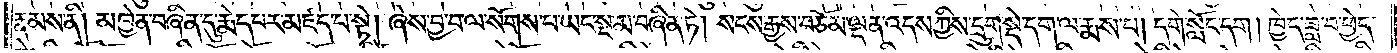རྣམས་ནི། མཁྱེན་བཞིན་དུ་རྨེད་པར་མཛད་པ་སྟེ། ཞེས་བྱ་བ་ལ་སོགས་པ་ཡང་སྔ་མ་བཞིན་ཏེ། སངས་རྒྱས་བཅོམ་ལྡན་འདས་ཀྱིས་དྲུག་སྡེ་དག་ལ་རྨས་པ། དགེ་སློང་དག །ཁྱེད་ཟླ་བ་ཕྱེད་
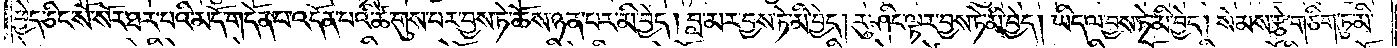ཕྱེད་ཅིང་སོ་སོར་ཐར་པའི་མདོ་གདོན་པ་འདོན་པའི་ཚེ་གུས་པར་བྱས་ཏེ་ཆོས་ཉན་པར་མི་བྱེད། བླ་མར་བྱས་ཏེ་མི་བྱེད། རུ་ཤིང་ལྟར་བྱས་ཏེ་མི་བྱེད། ཡིད་ལ་བྱས་ཏེ་མི་བྱེད། སེམས་རྩེ་གཅིག་ཏུ་མི་
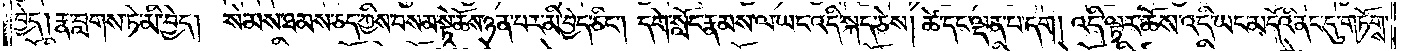བྱེད། རྣ་བླགས་ཏེ་མི་བྱེད། སེམས་ཐམས་ཅད་ཀྱིས་བསམ་སྟེ་ཆོས་ཉན་པར་མི་བྱེད་ཅིང༌། དགེ་སློང་རྣམས་ལ་ཡང་འདི་སྐད་ཅེས། ཚེ་དང་ལྡན་པ་དག །འདི་ལྟར་ཆོས་འདི་ཡང་མདོའི་ནང་དུ་གཏོགས་
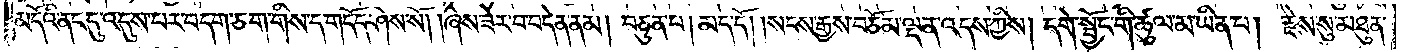མདོའི་ནང་དུ་འདུས་པར་བདག་ཅག་གིས་ད་གདོད་ཤེས་སོ། །ཞེས་ཟེར་བ་བདེན་ནམ། བཅུན་པ། མད་དོ། །སངས་རྒྱས་བཅོམ་ལྡན་འདས་ཀྱིས། དགེ་སྦྱོང་གི་ཚུལ་མ་ཡིན་པ། རྗེས་སུ་མཐུན་
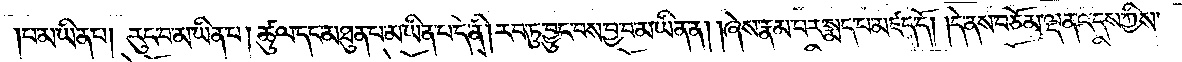པ་མ་ཡིན་པ། རུང་བ་མ་ཡིན་པ། ཚུལ་དང་མཐུན་པ་མ་ཡིན་པ་དེ་ནི། རབ་ཏུ་བྱུང་བས་བྱ་བ་མ་ཡིན་ན། ཞེས་རྣམ་པར་སྨད་པ་མཛད་དོ། །དེ་ནས་བཅོམ་ལྡན་འདས་ཀྱིས་
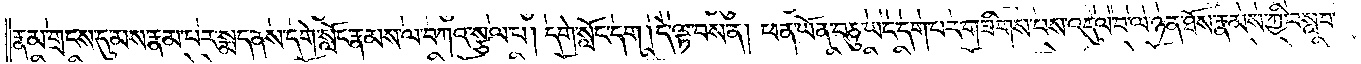རྣམ་གྲངས་དུ་མས་རྣམ་པར་སྨད་ནས་དགེ་སློང་རྣམས་ལ་བཀའ་སྩལ་པ། དགེ་སློང་དག །དེ་ལྟ་བས་ན། ཕན་ཡོན་བཅུ་ཡང་དག་པར་གཟིགས་པས་འདུལ་བ་ལ་ཉན་ཐོས་རྣམས་ཀྱི་བསླབ་
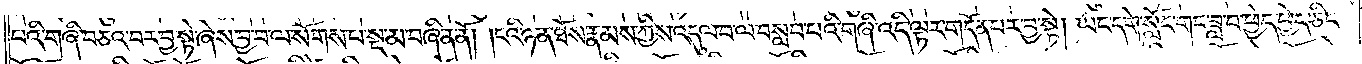པའི་གཞི་བཅའ་བར་བྱ་སྟེ་ཞེས་བྱ་བ་ལ་སོགས་པ་སྔ་མ་བཞིན་ནོ། །ངའི་ཉན་ཐོས་རྣམས་ཀྱིས་འདུལ་བ་ལ་བསླབ་པའི་གཞི་འདི་ལྟར་གདོན་པར་བྱ་སྟེ། ཡང་དགེ་སློང་གང་ཟླ་བ་ཕྱེད་ཕྱེད་ཅིང་
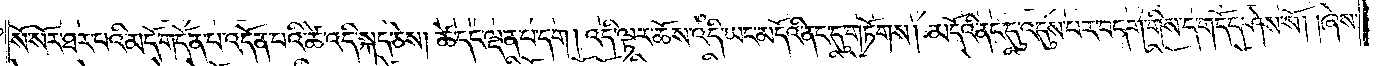སོ་སོར་ཐར་པའི་མདོ་གདོན་པ་འདོན་པའི་ཚེ་འདི་སྐད་ཅེས། ཚེ་དང་ལྡན་པ་དག །འདི་ལྟར་ཆོས་འདི་ཡང་མདོའི་ནང་དུ་གཏོགས། མདོའི་ནང་དུ་འདུས་པར་བདག་གིས་ད་གདོད་ཤེས་སོ། །ཞེས་
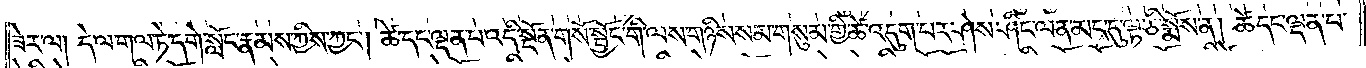ཟེར་ལ། དེ་ལ་གལ་ཏེ་དགེ་སློང་རྣམས་ཀྱིས་ཀྱང༌། ཚེ་དང་ལྡན་པ་འདི་སྔོན་གསོ་སྦྱོང་གི་ལས་གཉིས་སམ་གསུམ་གྱི་ཚེ་འདུག་པར་ཤེས་ཤིང་ལ་མང་དུ་ལྟ་ཅི་སྨོས་ན། ཚེ་དང་ལྡན་པ་
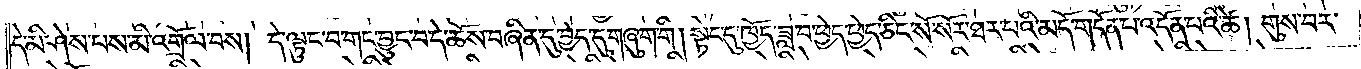དེ་མི་ཤེས་པས་མི་འགྲོལ་བས། དེ་ལྟུང་བ་གང་བྱུང་བ་དེ་ཆོས་བཞིན་དུ་བྱེད་དུ་གཞུག་གི །སྟེང་དུ་ཁྱོད་ཟླ་བ་ཕྱེད་ཕྱེད་ཅིང་སོ་སོར་ཐར་པའི་མདོ་གདོན་པ་འདོན་པའི་ཚེ། གུས་པར་
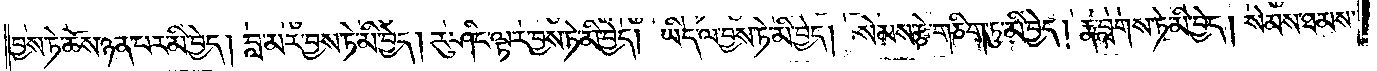བྱས་ཏེ་ཆོས་ཉན་པར་མི་བྱེད། བླ་མར་བྱས་ཏེ་མི་བྱེད། རུ་ཤིང་ལྟར་བྱས་ཏེ་མི་བྱེད། ཡིད་ལ་བྱས་ཏེ་མི་བྱེད། སེམས་རྩེ་གཅིག་ཏུ་མི་བྱེད། རྣ་བླགས་ཏེ་མི་བྱེད། སེམས་ཐམས་
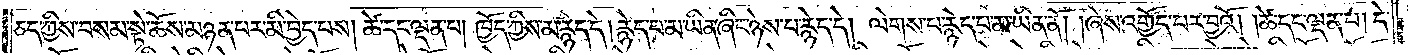ཅད་ཀྱིས་བསམ་སྟེ་ཆོས་མཉན་པར་མི་བྱེད་པས། ཚེ་དང་ལྡན་པ། ཁྱོད་ཀྱིས་མ་རྙེད་དེ། རྙེད་པ་མ་ཡིན་ཞིང་ཉེས་པ་རྙེད་དེ། ལེགས་པ་རྙེད་པ་མ་ཡིན་ནོ། །ཞེས་འགྱོད་པར་བྱའོ། །ཚེ་དང་ལྡན་པ། དེ་
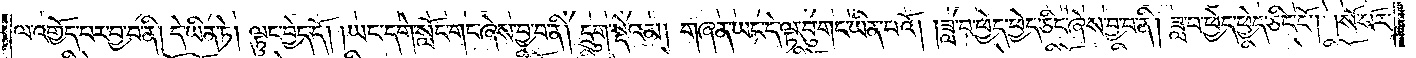ལ་འགྱོད་པར་བྱ་བ་ནི། དེ་ཡིན་ཏེ། ལྟུང་བྱེད་དོ། །ཡང་དགེ་སློང་གང་ཞེས་བྱ་བ་ནི། དྲུག་སྡེའམ། གཞན་ཡང་དེ་ལྟ་བུ་གང་ཡིན་པའོ། །ཟླ་བ་ཕྱེད་ཕྱེད་ཅིང་ཞེས་བྱ་བ་ནི། ཟླ་བ་ཕྱེད་ཕྱེད་ཅིང་ངོ༌། །སོ་སོར་
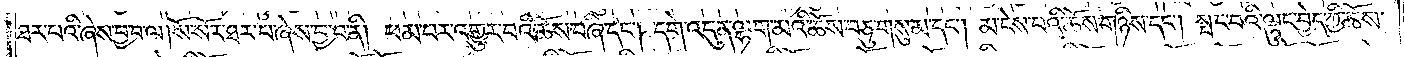ཐར་པའི་ཞེས་བྱ་བ་ལ། སོ་སོར་ཐར་པ་ཞེས་བྱ་བ་ནི། ཕམ་པར་འགྱུར་བའི་ཆོས་བཞི་དང༌། དགེ་འདུན་ལྷག་མའི་ཆོས་བཅུ་གསུམ་དང༌། མ་ངེས་པའི་ཆོས་གཉིས་དང༌། སྤང་བའི་ལྟུང་བྱེད་ཀྱི་ཆོས་
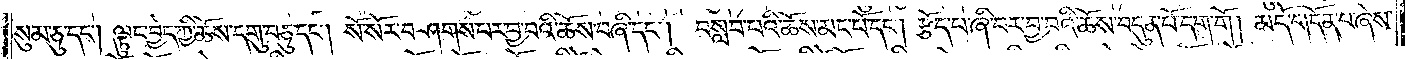སུམ་ཅུ་དང༌། ལྟུང་བྱེད་ཀྱི་ཆོས་དགུ་བཅུ་དང༌། སོ་སོར་བཤགས་པར་བྱ་བའི་ཆོས་བཞི་དང༌། བསླབ་པའི་ཆོས་མང་པོ་དང༌། རྩོད་པ་ཞི་བར་བྱ་བའི་ཆོས་བདུན་པོ་དག་གོ །མདོ་གདོན་པ་ཞེས་
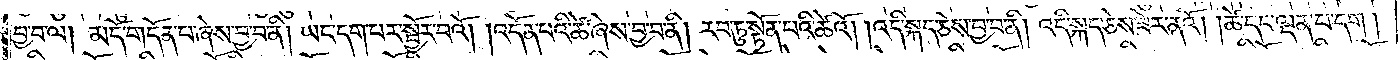བྱ་བ་ལ། མདོ་གདོན་པ་ཞེས་བྱ་བ་ནི། ཡང་དག་པར་སྦྱོར་བའོ། །འདོན་པའི་ཚེ་ཞེས་བྱ་བ་ནི། རབ་ཏུ་སྟོན་པའི་ཚེའོ། །འདི་སྐད་ཅེས་བྱ་བ་ནི། འདི་སྐད་ཅེས་ཟེར་ནའོ། །ཚེ་དང་ལྡན་པ་དག །
